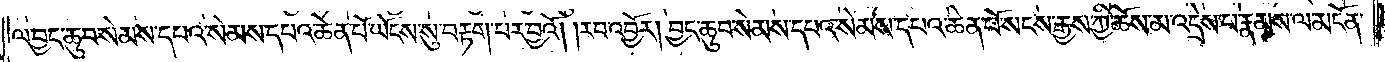ལ་བྱང་ཆུབ་སེམས་དཔའ་སེམས་དཔའ་ཆེན་པོ་ཡོངས་སུ་བརྟག་པར་བྱའོ། །རབ་འབྱོར། བྱང་ཆུབ་སེམས་དཔའ་སེམས་དཔའ་ཆེན་པོ་སངས་རྒྱས་ཀྱི་ཆོས་མ་འདྲེས་པ་རྣམས་ལ་མངོན་
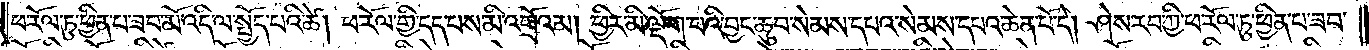ཕ་རོལ་ཏུ་ཕྱིན་པ་ཟབ་མོ་འདི་ལ་སྤྱོད་པའི་ཚེ། ཕ་རོལ་གྱི་དད་པས་མི་འགྲོའམ། ཕྱིར་མི་ལྡོག་པའི་བྱང་ཆུབ་སེམས་དཔའ་སེམས་དཔའ་ཆེན་པོ་དེ། ཤེས་རབ་ཀྱི་ཕ་རོལ་ཏུ་ཕྱིན་པ་ཟབ་
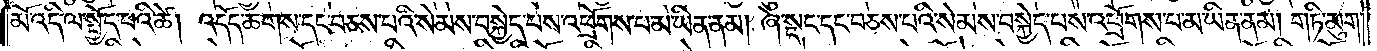མོ་འདི་ལ་སྤྱོད་པའི་ཚེ། འདོད་ཆགས་དང་བཅས་པའི་སེམས་བསྐྱེད་པས་འཕྲོགས་པ་མ་ཡིན་ནམ། ཞེ་སྡང་དང་བཅས་པའི་སེམས་བསྐྱེད་པས་འཕྲོགས་པ་མ་ཡིན་ནམ། གཏི་མུག་
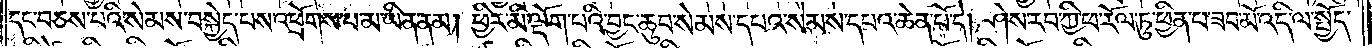དང་བཅས་པའི་སེམས་བསྐྱེད་པས་འཕྲོགས་པ་མ་ཡིན་ནམ། ཕྱིར་མི་ལྡོག་པའི་བྱང་ཆུབ་སེམས་དཔའ་སེམས་དཔའ་ཆེན་པོ་དེ། ཤེས་རབ་ཀྱི་ཕ་རོལ་ཏུ་ཕྱིན་པ་ཟབ་མོ་འདི་ལ་སྤྱོད་
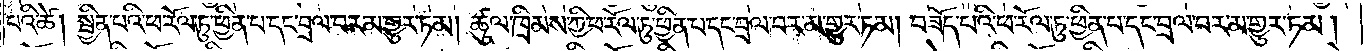པའི་ཚེ། སྦྱིན་པའི་ཕ་རོལ་ཏུ་ཕྱིན་པ་དང་བྲལ་བར་མ་གྱུར་ཏམ། ཚུལ་ཁྲིམས་ཀྱི་ཕ་རོལ་ཏུ་ཕྱིན་པ་དང་བྲལ་བར་མ་གྱུར་ཏམ། བཟོད་པའི་ཕ་རོལ་ཏུ་ཕྱིན་པ་དང་བྲལ་བར་མ་གྱུར་ཏམ།
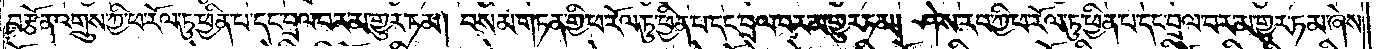བརྩོན་འགྲུས་ཀྱི་ཕ་རོལ་ཏུ་ཕྱིན་པ་དང་བྲལ་བར་མ་གྱུར་ཏམ། བསམ་གཏན་གྱི་ཕ་རོལ་ཏུ་ཕྱིན་པ་དང་བྲལ་བར་མ་གྱུར་ཏམ། ཤེས་རབ་ཀྱི་ཕ་རོལ་ཏུ་ཕྱིན་པ་དང་བྲལ་བར་མ་གྱུར་ཏམ་ཞེས་
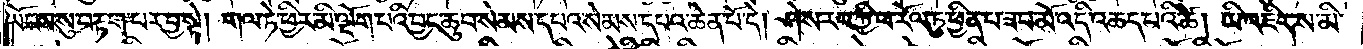ཡོངས་སུ་བརྟག་པར་བྱ་སྟེ། གལ་ཏེ་ཕྱིར་མི་ལྡོག་པའི་བྱང་ཆུབ་སེམས་དཔའ་སེམས་དཔའ་ཆེན་པོ་དེ། ཤེས་རབ་ཀྱི་ཕ་རོལ་ཏུ་ཕྱིན་པ་ཟབ་མོ་འདི་ལ་འཆད་པའི་ཚེ། མི་འཇིགས་མི་
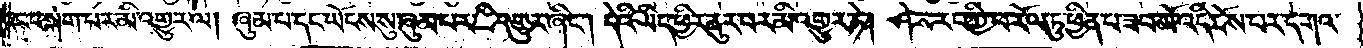དངང་སྐྲག་པར་མི་འགྱུར་ལ། ཞུམ་པ་དང་ཡོངས་སུ་ཞུམ་པར་མི་འགྱུར་ཞིང༌། དེའི་ཡིད་ཕྱིར་ནུར་བར་མི་འགྱུར་ཏེ། ཤེས་རབ་ཀྱི་ཕ་རོལ་ཏུ་ཕྱིན་པ་ཟབ་མོ་འདི་ཐོས་པར་དགའ་
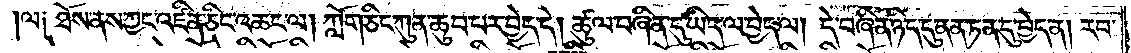ལ༑ ཐོས་ནས་ཀྱང་འཛིན་ཅིང་འཆང་ལ། ཀློག་ཅིང་ཀུན་ཆུབ་པར་བྱེད་དེ། ཚུལ་བཞིན་དུ་ཡིད་ལ་བྱེད་ལ། དེ་བཞིན་ཉིད་དུ་ནན་ཏན་དུ་བྱེད་ན། རབ་
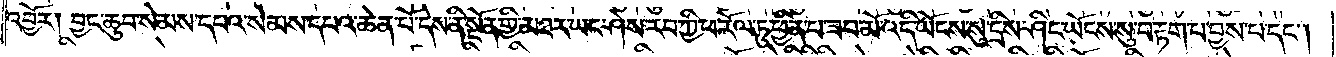འབྱོར། བྱང་ཆུབ་སེམས་དཔའ་སེམས་དཔའ་ཆེན་པོ་དེས་ནི་སྔོན་གྱི་མཐར་ཡང་ཤེས་རབ་ཀྱི་ཕ་རོལ་ཏུ་ཕྱིན་པ་ཟབ་མོ་འདི་ཡོངས་སུ་དྲིས་ཤིང་ཡོངས་སུ་བརྟག་པ་བྱས་པ་དང༌།
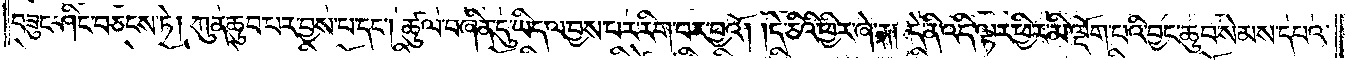བཟུང་ཤིང་བཅངས་ཏེ། ཀུན་ཆུབ་པར་བྱས་པ་དང༌། ཚུལ་བཞིན་དུ་ཡིད་ལ་བྱས་པར་རིག་པར་བྱའོ། །དེ་ཅིའི་ཕྱིར་ཞེ་ན། དེ་ནི་འདི་ལྟར་ཕྱིར་མི་ལྡོག་པའི་བྱང་ཆུབ་སེམས་དཔའ་
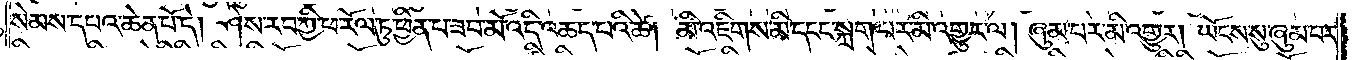སེམས་དཔའ་ཆེན་པོ་དེ། ཤེས་རབ་ཀྱི་ཕ་རོལ་ཏུ་ཕྱིན་པ་ཟབ་མོ་འདི་འཆད་པའི་ཚེ། མི་འཇིགས་མི་དངང་སྐྲག་པར་མི་འགྱུར་ལ། ཞུམ་པར་མི་འགྱུར། ཡོངས་སུ་ཞུམ་པར་
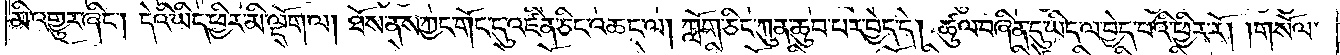མི་འགྱུར་ཞིང༌། དེའི་ཡིད་ཕྱིར་མི་ལྡོག་ལ། ཐོས་ནས་ཀྱང་གོང་དུ་འཛིན་ཅིང་འཆང་ལ། ཀློག་ཅིང་ཀུན་ཆུབ་པར་བྱེད་དེ། ཚུལ་བཞིན་དུ་ཡིད་ལ་བྱེད་པའི་ཕྱིར་རོ། །གསོལ་
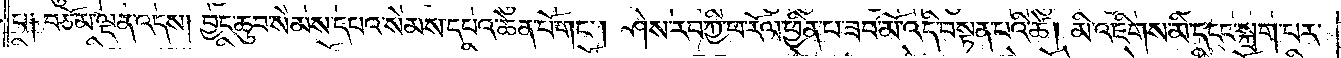པ༑ བཅོམ་ལྡན་འདས། བྱང་ཆུབ་སེམས་དཔའ་སེམས་དཔའ་ཆེན་པོ་གང༌། ཤེས་རབ་ཀྱི་ཕ་རོལ་ཏུ་ཕྱིན་པ་ཟབ་མོ་འདི་བསྟན་པའི་ཚེ། མི་འཇིགས་མི་དངང་སྐྲག་པར་
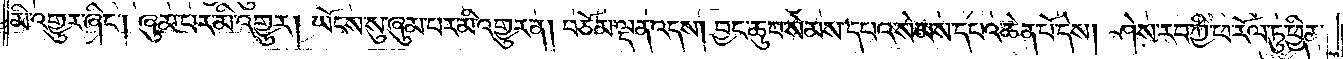མི་འགྱུར་ཞིང༌། ཞུམ་པར་མི་འགྱུར། ཡོངས་སུ་ཞུམ་པར་མི་འགྱུར་ན། བཅོམ་ལྡན་འདས། བྱང་ཆུབ་སེམས་དཔའ་སེམས་དཔའ་ཆེན་པོ་དེས། ཤེས་རབ་ཀྱི་ཕ་རོལ་ཏུ་ཕྱིན་
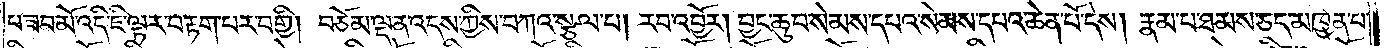པ་ཟབ་མོ་འདི་ཇི་ལྟར་བརྟག་པར་བགྱི། བཅོམ་ལྡན་འདས་ཀྱིས་བཀའ་སྩལ་པ། རབ་འབྱོར། བྱང་ཆུབ་སེམས་དཔའ་སེམས་དཔའ་ཆེན་པོ་དེས། རྣམ་པ་ཐམས་ཅད་མཁྱེན་པ་
